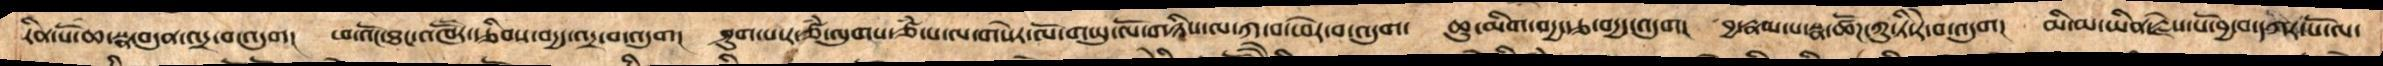རིན་པོ་ཆེ་སྣ་བདུན་འདྲ་བ་འདུག།  ཕ་འོང་ཐང་འཁཽར་རྩིབས་བདྱད་འདྲ་བ་འདུག།   ཤུག་པ་ར་ཙཾ་ལུགས་ཙཾ་པ་ལ་གསེར་ལོ་གཡུ་ལོ་གཉིས་ལ་ཀ་བ་ཕེར་བ་འདུག།   ཆུ་མིག་བདྱ་རྩ་བདྱད་འདུག།   བྱ་རྣམ་པ་སྣ་ཚོཌ་ཀུ་ཏི་རེ་བ་འདུག།   མི་མ་ཡིན་རྗེས་སོ་ཆེ་བྱ་བ་དཀར་པོ་ལ་
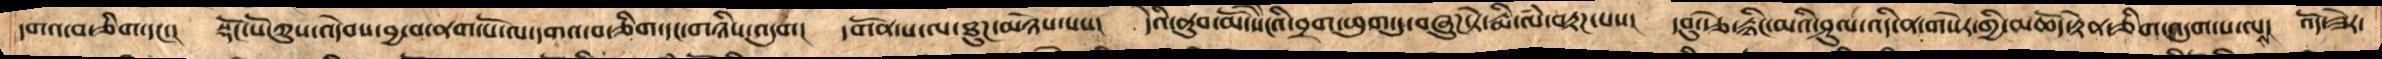དགའ་བ་ཅིག་དང་།  སྡོང་པོ་ཀུས་འདེབས་བྱ་བ་ནག་པོ་ལ་དགའ་བ་ཅིག་དང་གཉིས་འདུག།   དགོན་པ་ལ་ཐུཌ་མཉེས་པས།   དེའི་ནུབ་མོ་སེངེའི་བྲག་ཕུག་དུ་བཞུཌ་ཏེ་རྨི་ལཾ་བརྟཌ་པས།  དབུ་རྩེ་རྙིང་མའི་ཤུལ་འདི་ན་གསེར་གྱི་མཆོད་རྟེན་ཅིག་འདུག་པ་ལས།  འོད་ཟེར་
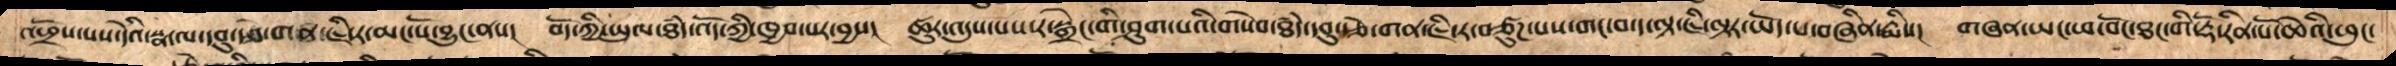འཕྲོས་པས་དེའི་སྣ་ལ་དབུ་རྩེ་གན་ཇི་ར་མང་པོ་བྱུང་ནས།   བོད་ཀྱི་ཡུལ་ཐཾད་འོད་ཀྱི་ཁྱབ་པར་བྱས།   ཚུར་འདུས་པས་ར་སྒྲེང་གི་ཤུག་པའི་གསེབ་ཐཾད་དུ་དབུ་རྩེ་གན་ཇི་ར་བཙུཌ་པས་གང་བ་ད་ལྟ་ཇི་ལྟར་ཡོད་པ་བཞིན་རྨིས།  གཞན་ཡང་ཕ་བོང་ཐང་གི་རྡོ་རིན་པོ་ཆེའི་ཕུང་
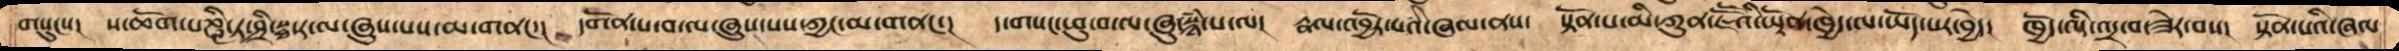གསུངས།  ས་ཆོག་པཎྜི་ཏ་ཤྲཱི་སྠ་ར་ལ་ཞུས་པས་མ་གནང་།   དགོན་པ་བ་ལ་ཞུས་པས་ཀྱང་མ་གནང་།    ད་གསང་ཕུ་བ་ལ་ཞུ་སྙཾ་པ་ལ།   རྣལ་འབྱོར་པའི་ཞལ་ནས།  སྟོན་པ་མི་ཀུན་ཇཽའི་ཡྟོན་ཁྱེད་ལ་ཡོད་པར་བྱེད།   ཁྱེད་འདི་འདྲ་བ་ཟེར་བས།   སྟོན་པའི་ཞལ
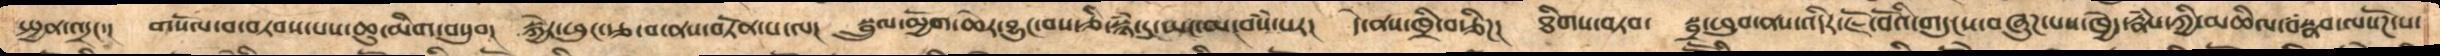སྤྱན་འདྲང་།   གསོལ་བ་བཏབས་པས་ཆུ་མིག་བསུབ།    སྐྱེར་ཕུང་རྩ་བ་ནས་བཏོན་པ་ལ།   སྦྲུལ་མྱོག་ཆེར་བྱུང་བས་ཅི་སྙཾ་དུ་ཡང་མ་བསཾ་པར།   དེ་ནས་ཁྲི་བ་ཅིཌ།  ཐིགས་བཏབ་  སྦྲ་ཕུབ་ནས་འདིར་ཇོ་བོའི་གདུངས་བཞུཌ་པས་ཁྱེད་རྣཾས་ཀྱི་མཆིལ་བསྣབ་ལསོཌ་པ་
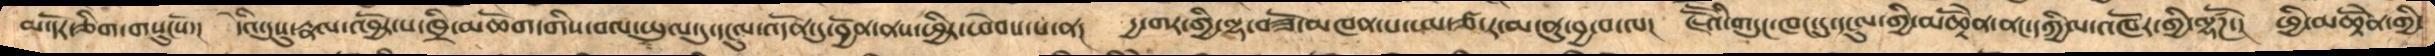མ་དོར་ཅིག་གསུངསོ་།   དེའི་དུསུ་རྣལ་འབྱོར་པ་ཁྲི་མཆོག་གིས་བལ་ཡུལ་དུ་དངུལ་འདོན་དུ་བྱོན་ནས་ཕྱིར་ཕེབས་པ་ན།   དྱ་གར་གྱི་ལྷ་བཟོ་མཁན་པ་ཨ་ཙ་ར་མ་ནུ་བྱ་བ་ལ།   ཇཽའི་གདུང་ཁང་དུ་དངུལ་གྱི་མཆྟོནེ་ནང་དཀྱིལ་འཁོར་གྱི་ལྷཚོཌ་།    ཕྱི་མཆྟོནེ་གྱི་
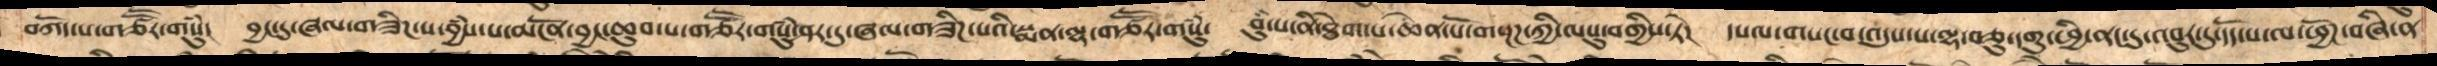བཀོད་པ་གཙཽར་གསུཾ།   བྱང་དུ་ཞལ་གཟིཌ་པ་བྱཾས་པ་མངོན་བྱང་ཆུབ་པ་གཙཽར་གསུཾ་ཤར་དུ་ཞལ་གཟིཌ་པའི་སྨན་ལྷ་གཙཽར་གསུཾ་    བུཾ་པ་ནི་ཐེག་པ་ཆེན་པོ་གསྔཌ་ཀྱི་ལསུ་བགྱིས་ཏེ།  དཔལ་གསང་བ་འདུས་པ་ལྷ་བཅུ་དགུ་ཕྱི་ནང་དུ་འབུར་དུ་དོད་པ་ལ་ཕྱོཌ་བཞི་ན
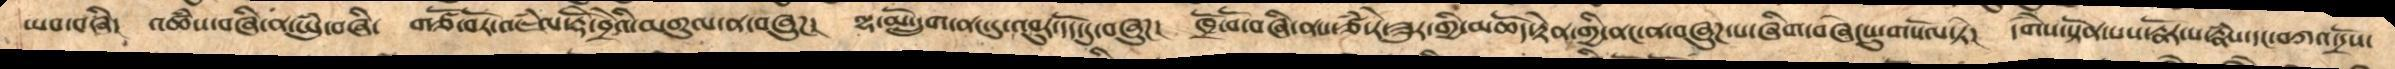ཡབ་བཞི།  མཚཾས་བཞི་ན་ཡུཾ་བཞི།  གཙོ་བོར་འཇཾལ་རྡོེ་བྲེའི་མགུལ་ན་བཞུཌ།   ལྷ་མོ་དྲུག་ནང་དུ་འབུར་དོད་དུ་བཞུཌ།  ཁྲོ་བོ་བཞི་ནས་ཙཾ་རེ་ཟུར་གྱི་མཆོད་རྟེན་གྱི་ནང་ན་བཞུཌ་པ་ཞིག་བཞེངསུ་གསོལ་ཏེ།  དགཻས་སྟོན་པས་རྣོར་པ་རྣཾས་དང་བཀའ་དྲོས་
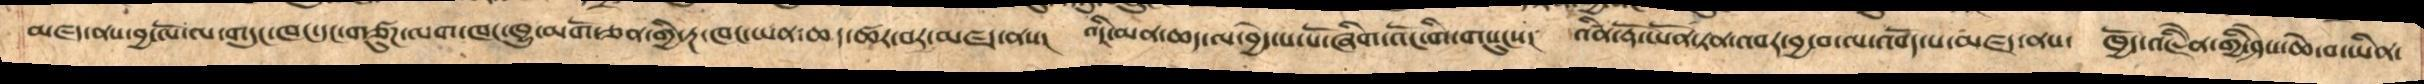མཛད་ནས་བྱ་ལོ་ལ་གདུང་ཁང་དང་གཙུཌ་ལག་ཁང་ཁྱུ་མགོ་ཅན་གྱི་རྔ་ཁང་ཡན་ཆད་ཚར་བར་མཛད་ནས།   འདི་མན་ཆད་ལ་བྱེད་པ་པོ་ཞིག་འོང་གི་གསུངས།  འཛིན་རྡོ་ཡོན་ཏན་འབར་བྱ་བ་ལ་འབོད་པ་མཛད་ནས།   ཁྱོད་འཇིེན་གྱི་ཤེས་ཆེ་བ་ཡིན་
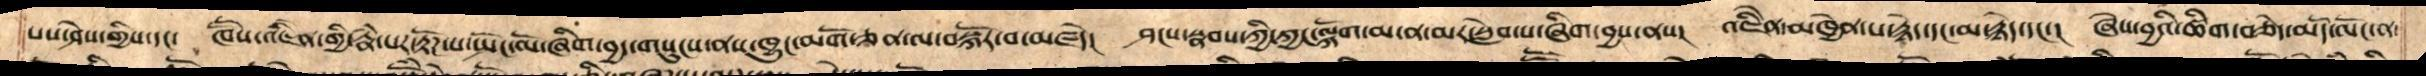པས་ཤེས་གྱིས་དང་།   ཁཽས་འཇིེན་གྱི་རྣཾ་པར་རྟོཌ་པ་སྤོང་མོ་ཞིག་བྱད་གསུངས་ནས་ཁྱུང་མགོ་ཅན་ལ་བསྐོར་བ་མཛདེ།   ཤངས་སྣབས་ཀྱི་ཀྱང་ལྐོག་མ་ན་མར་སླེབ་པ་ཞིག་བྱས་ནས།  འཇིནེ་མཁྱེན་པ་རྙེད་དང་མ་རྙེད་དང་། ཞེས་བྱའི་ཚིག་བཅད་མདོ་ལོང་ན་
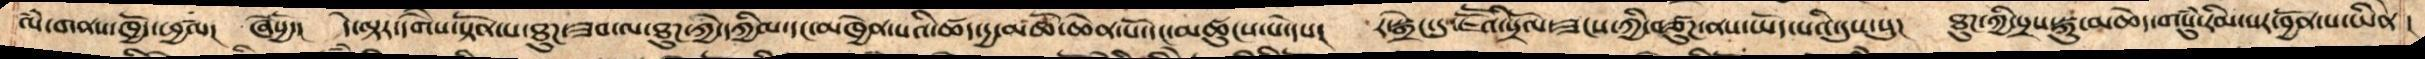ལཾ་གནས་ཁྱོད་ཕྱཚལ།   ཞེསྱོ་།  དེ་ལྟར་དགཻས་སྟོན་པ་ཐུཌ་ཟབ་ལ་ཐུཌ་ཀྱི་དཀྱིལ་དང་མཁྱེན་པའི་ཚད་དྱ་མཚོ་ཆེན་པ་དང་མཚུངས་པ་དེས།   ར་སྒྲེང་དུ་ཇཽའི་སྲོལ་ཟངས་ཀྱི་བཙུཌ་ནས་ཡོད་པའི་དུས་སུ།   ཐུཌ་ཀྱི་སྲས་སྐུ་མཆེད་གསུཾ་རིམ་པར་བྱོན་པ་ཡིནེ །
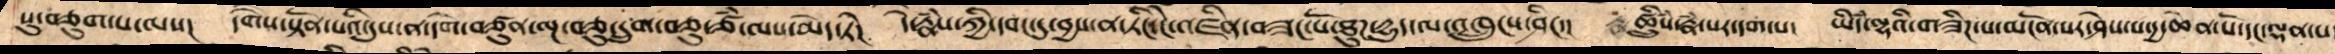སུ་བཅུག་པ་ལ། དགཻས་སྟོན་པའི་དུས་ན་དགེ་བཙུན་ལྔ་བཅུ་དྲུག་བཅུ་ཙཾ་ལས་མེད་ཏེ།  དེ་རྣཾས་ཀྱི་དབང་དུ་བྱས་ན་ཏིང་ངེ་འཛིན་བཟང་པོ་ཐུཌ་དྱུད་ལ་འཁྲུངས་ཤིང་།   ཚྲིུཾས་རྣཾ་པར་དག་པ་  ཡི་དཾ་ལྷའི་གཟིཌ་པ་མངོན་པར་ཤེས་པ་དྱ་ཆེན་པོ་དང་ལྡན་པ་
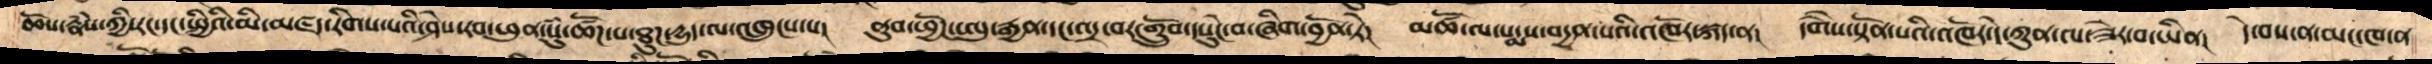ཆོས་རྣཾས་ཀྱི་རང་དང་སྤྱིའི་མི་མཛད་རིགས་པའི་ཤེས་རབ་ཕུན་སུཾ་ཚོཌ་པ་ཐུཌ་དྱུད་ལ་འཁྲུངས་པ།   ནུབ་ཕྱོཌ་ཨུ་རྒྱན་དང་འདྲ་བར་གྲོུབ་དཔུངེ་བ་ཞིག་བྱོན་ཏེ།  མཚོ་ལ་པདྨས་བདྱན་པའི་འཁོར་སྐད་ན།   དགཻས་སྟོན་པའི་འཁོར་དེ་ཀུན་ལ་ཟེར་བ་ཡིན།   དེ་བས་ན་མང་ཁ་ན་
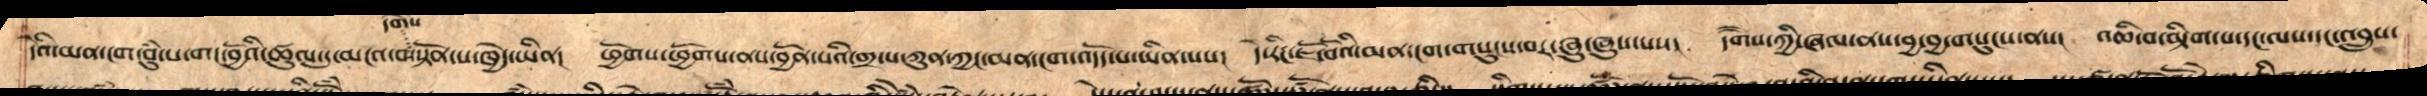དེའི་མན་ངག་བུཾ་པ་གང་བྱོའི་ཚུལ་དུ་མངའ་བ་དགཻས་སྟོན་པ་ཁྱེད་ཡིན། ཕྱོགས་ཕྱོགས་ནས་བྱོན་པའི་གྲྭ་པ་ཀུན་ཀྱང་མན་ངག་འདོད་པ་ཡིན་པས། དེ་རིང་ཇོ་བོའི་མན་ངག་གསུངས་བར་ཞུ་ཞུས་པས། དགཻས་ཀྱི་ཞལ་ནས་བྱ་བྱ་གསུངས་ནས། འཆི་བ་དང་མྟིག་པ་དང་ལས་དང་འབྲུས་
